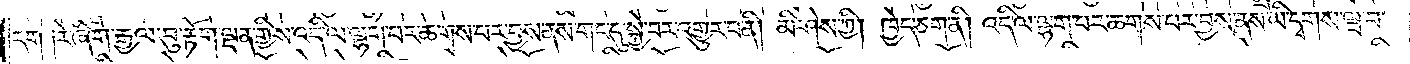དག ༑རེ་ཞིག་རྒྱལ་བུ་རྟོག་ལྡན་གྱིས་འདི་ལ་ལྷག་པར་ཆགས་པར་བྱས་ནས་གང་དུ་སྐྱེ་བར་འགྱུར་བ་ནི། མི་ཤེས་ཀྱི། ཁྱེད་ཅག་ནི། འདི་ལ་ལྷག་པར་ཆགས་པར་བྱས་ནས་ཡི་དྭགས་ཝ་བ་
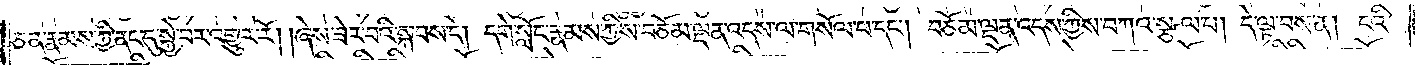ཅན་རྣམས་ཀྱི་ནང་དུ་སྐྱེ་བར་འགྱུར་རོ། །ཞེས་ཟེར་བའི་སྐབས་དེ། དགེ་སློང་རྣམས་ཀྱིས་བཅོམ་ལྡན་འདས་ལ་གསོལ་པ་དང༌། བཅོམ་ལྡན་འདས་ཀྱིས་བཀའ་སྩལ་པ། དེ་ལྟ་བས་ན། ངའི་
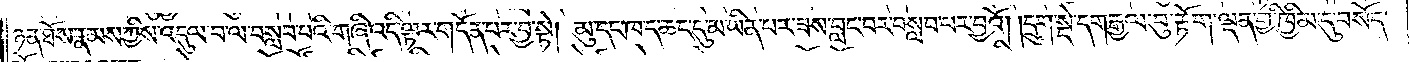ཉན་ཐོས་རྣམས་ཀྱིས་འདུལ་བ་ལ་བསླབ་པའི་གཞི་འདི་ལྟར་གདོན་པར་བྱ་སྟེ། མུ་དང་ཁ་ད་ཆད་དུ་མ་ཡིན་པར་ཟས་བླང་བར་བསླབ་པར་བྱའོ། །དྲུག་སྡེ་དག་རྒྱལ་བུ་རྟོག་ལྡན་གྱི་ཁྱིམ་དུ་བསོད་
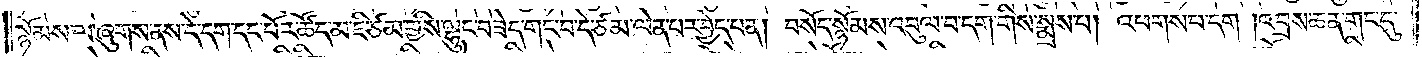སྙོམས་ལ་ཞུགས་ནས་དེ་དག་དང་པོར་ཚོད་མ་ཇི་ཙམ་གྱིས་ལྷུང་བཟེད་གང་བ་དེ་ཙམ་ལེན་པར་བྱེད་པ་ན། བསོད་སྙོམས་འབུལ་བ་དག་གིས་སྨྲས་པ། འཕགས་པ་དག །འབྲས་ཆན་གང་དུ་
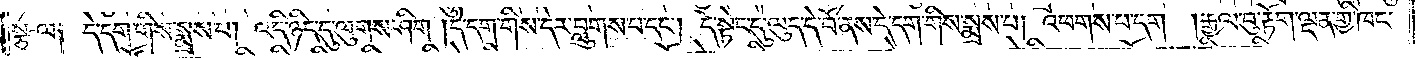སྩལ༑ དེ་དག་གིས་སྨྲས་པ། འདི་ཉིད་དུ་ལུགས་ཤིག །དེ་དག་གིས་དེར་བླུགས་པ་དང༌། དེ་སྟེང་དུ་ལུད་དེ་བོ་ནས་དེ་དག་གིས་སྨྲས་པ། འཕགས་པ་དག །རྒྱལ་བུ་རྟོག་ལྡན་གྱི་ཁང་
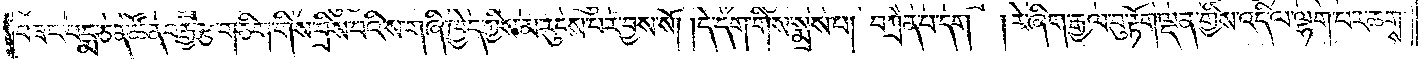བཟང་པདྨ་ཅན་ཚོན་བརྒྱ་རྩ་གཅིག་གིས་བྲིས་པའི་ས་གཞི་ཁྱེད་ཀྱིས་མ་རུངས་པར་བྱས་སོ། །དེ་དག་གིས་སྨྲས་པ། བཀྲེན་པ་དག །རེ་ཞིག་རྒྱལ་བུ་རྟོག་ལྡན་གྱིས་འདི་ལ་ལྷག་པར་ཆགས་
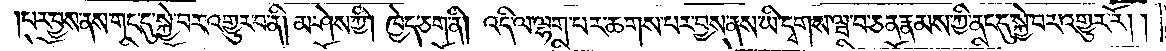པར་བྱས་ནས་གང་དུ་སྐྱེ་བར་འགྱུར་བ་ནི། མ་ཤེས་ཀྱི། ཁྱེད་ཅག་ནི། འདི་ལ་ལྷག་པར་ཆགས་པར་བྱས་ནས་ཡི་དྭགས་ཝ་བ་ཅན་རྣམས་ཀྱི་ནང་དུ་སྐྱེ་བར་འགྱུར་རོ། །
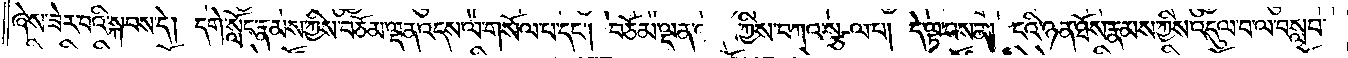ཞེས་ཟེར་བའི་སྐབས་དེ། དགེ་སློང་རྣམས་ཀྱིས་བཅོམ་ལྡན་འདས་ལ་གསོལ་པ་དང༌། བཅོམ་ལྡན་འདས་ཀྱིས་བཀའ་སྩལ་པ། དེ་ལྟ་བས་ན། ངའི་ཉན་ཐོས་རྣམས་ཀྱིས་འདུལ་བ་ལ་བསླབ་
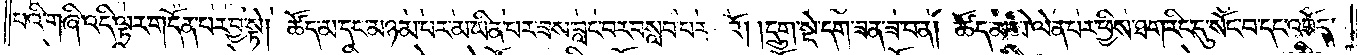པའི་གཞི་འདི་ལྟར་གདོན་པར་བྱ་སྟེ། ཚོད་མ་དང་མཉམ་པར་མ་ཡིན་པར་ཟས་བླང་བར་བསླབ་པར་བྱའོ། །དྲུག་སྡེ་དག །ཟན་ཟ་བ་ན། ཚོད་མ་མི་ལེན་པར་ཕྱིས་ཐག་རིང་དུ་སོང་བ་དང་འབོད་
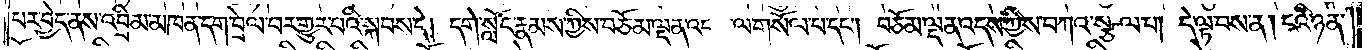པར་བྱེད་ནས་འབྲིམ་མཁན་དག་བྲེལ་བར་གྱུར་པའི་སྐབས་དེ། དགེ་སློང་རྣམས་ཀྱིས་བཅོམ་ལྡན་འདས་ལ་གསོལ་པ་དང༌། བཅོམ་ལྡན་འདས་ཀྱིས་བཀའ་སྩལ་པ། དེ་ལྟ་བས་ན། ངའི་ཉན་
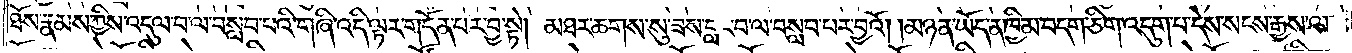ཐོས་རྣམས་ཀྱིས་འདུལ་བ་ལ་བསླབ་པའི་གཞི་འདི་ལྟར་གདོན་པར་བྱ་སྟེ། མཐར་ཆགས་སུ་ཟས་བླང་བ་ལ་བསླབ་པར་བྱའོ། །མཉན་ཡོད་ན་ཁྱིམ་བདག་ཅིག་འདུག་པ་དེས་སངས་རྒྱས་ལ་
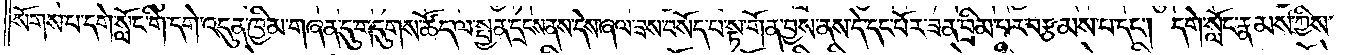སོགས་པ་དགེ་སློང་གི་དགེ་འདུན་ཁྱིམ་གཞན་དུ་གདུགས་ཚོད་ལ་སྤྱན་དྲངས་ནས་དེས་ཞལ་ཟས་བསོད་པ་སྟ་གོན་བྱས་ནས་དེ་དང་པོར་ཟན་བྲིམ་པར་བརྩམས་པ་དང༌། དགེ་སློང་རྣམས་ཀྱིས་
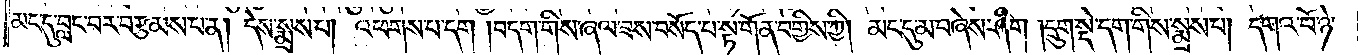མང་དུ་བླང་བར་བརྩམས་པ་ན། དེས་སྨྲས་པ། འཕགས་པ་དག །བདག་གིས་ཞལ་ཟས་བསོད་པ་སྟ་གྱོན་བགྱིས་ཀྱི། མང་དུ་མ་བཞེས་ཤིག །དྲུག་སྡེ་དག་གིས་སྨྲས་པ། དགའ་བོ་ཉེ་
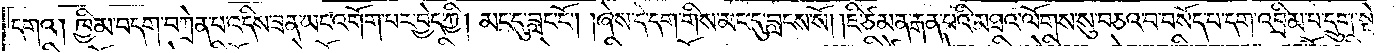དགའ། ཁྱིམ་བདག་བཀྲེན་པ་འདིས་ཟན་ཡང་འགོག་པར་བྱེད་ཀྱི། མང་དུ་བླང་ངོ༌། །ཞེས་དེ་དག་གིས་མང་དུ་བླངས་སོ། །ཇི་ཙམ་ན་རྒན་པའི་མཐའ་ལོགས་སུ་བཅའ་བ་བསོད་པ་དག་འབྲིམ་པ་དྲུག་སྡེ་
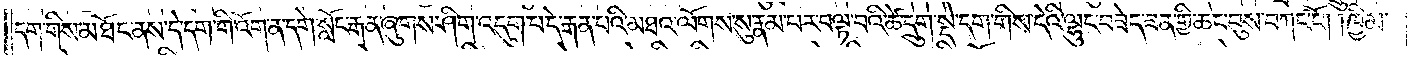དག་གིས་མཐོང་ནས་དེ་དག་གི་འོག་ན་དགེ་སློང་རྒན་ཞུགས་ཤིག་འདུག་པ་དེ་རྒན་པའི་མཐའ་ལོགས་སུ་རྣམ་པར་བལྟ་བའི་ཚེ་དྲུག་སྡེ་དག་གིས་དེའི་ལྷུང་བཟེད་ཟན་གྱི་ཆང་བུས་བཀང་ངོ༌། །ཁྱིམ་
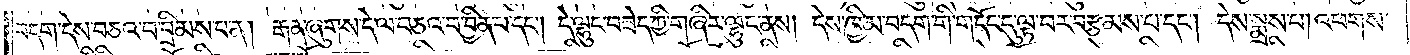བདག་དེས་བཅའ་བ་བྲིམས་པ་ན། རྒན་ཞུགས་དེ་ལ་བཅའ་བ་བྱིན་པ་དང༌། དེ་ལྷུང་བཟེད་ཀྱི་གཞིར་ལྷུང་ནས། དེས་ཁྱིམ་བདག་གི་གདོང་དུ་ལྟ་བར་བརྩམས་པ་དང༌། དེས་སྨྲས་པ། འཕགས་
